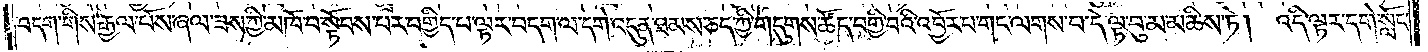བདག་གིས་རྒྱལ་པོས་ཞལ་ཟས་ཀྱི་མཁོ་བ་སྟོབས་པར་བགྱིད་པ་ལྟར་བདག་ལ་དགེ་འདུན་ཐམས་ཅད་ཀྱི་གདུགས་ཚོད་བགྱི་བའི་འབྱོར་པ་གང་ལགས་པ་དེ་ལྟ་བུ་མ་མཆིས་ཏེ། འདི་ལྟར་དགེ་སློང་
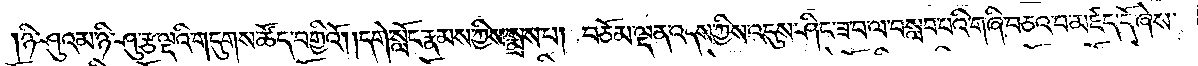ཉི་ཤུའམ་ཉི་ཤུ་རྩ་ལྔའི་གདུགས་ཚོད་བགྱིའོ། །དགེ་སློང་རྣམས་ཀྱིས་སྨྲས་པ། བཅོམ་ལྡན་འདས་ཀྱིས་འདུས་ཤིང་ཟ་བ་ལ་བསླབ་པའི་གཞི་བཅའ་བ་མཛད་དོ་ཞེས་
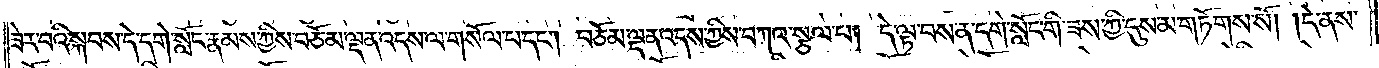ཟེར་བའི་སྐབས་དེ་དགེ་སློང་རྣམས་ཀྱིས་བཅོམ་ལྡན་འདས་ལ་གསོལ་པ་དང༌། བཅོམ་ལྡན་འདས་ཀྱིས་བཀའ་སྩལ་པ། དེ་ལྟ་བས་ན་དགེ་སློང་གི་ཟས་ཀྱི་དུས་མ་གཏོགས་སོ། །དེ་ནས་
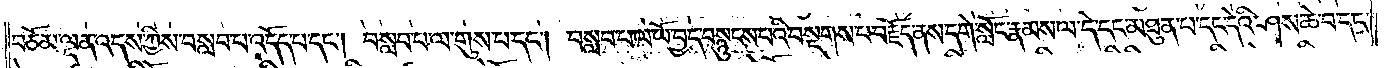བཅོམ་ལྡན་འདས་ཀྱིས་བསླབ་པ་འདོད་པ་དང༌། བསླབ་པ་ལ་གུས་པ་དང༌། བསླབ་པ་ལ་ཡོ་བྱད་བསྙུངས་པའི་བསྔགས་པ་བརྗོད་ནས་དགེ་སློང་རྣམས་ལ་དེ་དང་མཐུན་པ་དང་དེའི་ཤས་ཆེ་བ་དང་
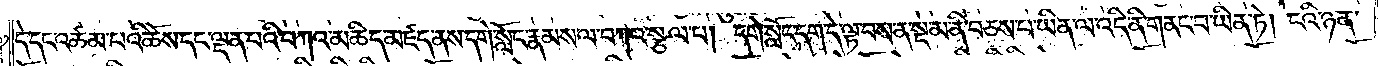དེ་དང་འཚམ་པའི་ཆོས་དང་ལྡན་པའི་བཀའ་མཆིད་མཛད་ནས་དགེ་སློང་རྣམས་ལ་བཀའ་སྩལ་པ། དགེ་སློང་དག་དེ་ལྟ་བས་ན་སྔ་མ་ནི་བཅས་པ་ཡིན་ལ་འདི་ནི་གནང་བ་ཡིན་ཏེ། ངའི་ཉན་
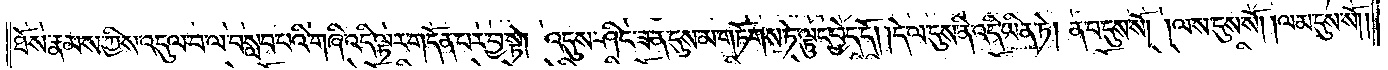ཐོས་རྣམས་ཀྱིས་འདུལ་བ་ལ་བསླབ་པའི་གཞི་འདི་ལྟར་གདོན་པར་བྱ་སྟེ། འདུས་ཤིང་ཟ་ན་དུས་མ་གཏོགས་ཏེ་ལྟུང་བྱེད་དོ། །དེ་ལ་དུས་ནི་འདི་ཡིན་ཏེ། ན་བ་དུས་སོ། །ལས་དུས་སོ། །ལམ་དུས་སོ། །
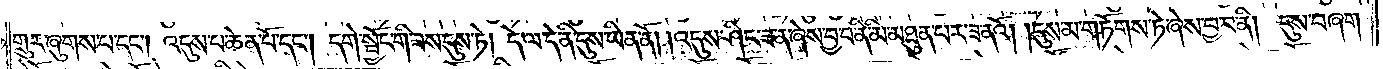གྲུར་ཞུགས་པ་དང༌། འདུས་པ་ཆེན་པོ་དང༌། དགེ་སྦྱོང་གི་ཟས་དུས་ཏེ། དེ་ལ་དེ་ནི་དུས་ཡིན་ནོ། །འདུས་ཤིང་ཟ་ན་ཞེས་བྱ་བ་ནི་མི་མཐུན་པར་ཟ་ནའོ། །དུས་མ་གཏོགས་ཏེ་ཞེས་བྱ་བ་ནི། དུས་བཞག་
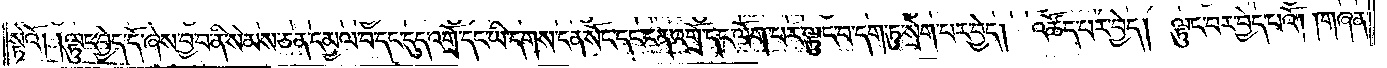སྟེའོ། །ལྟུང་བྱེད་དོ་ཞེས་བྱ་བ་ནི་སེམས་ཅན་དམྱལ་བ་དང་དུད་འགྲོ་དང་ཡི་དགས་ངན་སོང་དང་ངན་འགྲོ་དང་ལོག་པར་ལྟུང་བ་དག་ཏུ་སྲེག་པར་བྱེད། འཚོད་པར་བྱེད། ལྟུང་བར་བྱེད་པའོ། །གཞན་
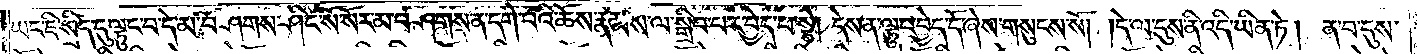ཡང་ཇི་སྲིད་དུ་ལྟུང་བ་དེ་མ་བཤགས་ཤིང་སོ་སོར་མ་བཤགས་ན་དགེ་བའི་ཆོས་རྣམས་ལ་སྒྲིབ་པར་བྱེད་པ་སྟེ། དེས་ན་ལྟུང་བྱེད་དོ་ཞེས་གསུངས་སོ། །དེ་ལ་དུས་ནི་འདི་ཡིན་ཏེ། ན་བ་དུས་
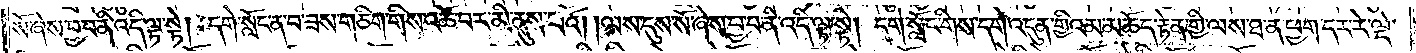སོ་ཞེས་བྱ་བ་ནི་འདི་ལྟ་སྟེ། དགེ་སློང་ན་བ་ཟས་གཅིག་གིས་འཚོ་བར་མི་ནུས་པའོ། །ལས་དུས་སོ་ཞེས་བྱ་བ་ནི་འདི་ལྟ་སྟེ། དགེ་སློང་གིས་དགེ་འདུན་གྱིའམ་མཆོད་རྟེན་གྱི་ལས་ཐ་ན་ཕྱག་དར་རེ་ལྡེ་
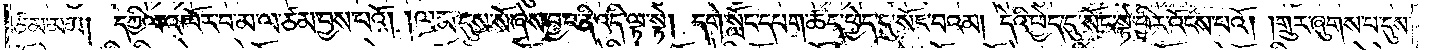ཙམ་མམ། དཀྱིལ་འཁོར་བ་མ་ལ་ཙམ་བྱས་པའོ། །ལམ་དུས་སོ་ཞེས་བྱ་བ་ནི་འདི་ལྟ་སྟེ། དགེ་སློང་དཔག་ཚད་ཕྱེད་དུ་སོང་བའམ། དེའི་ཕྱེད་དུ་སོང་སྟེ་ཕྱིར་འོངས་པའོ། །གྲུར་ཞུགས་པ་དུས་
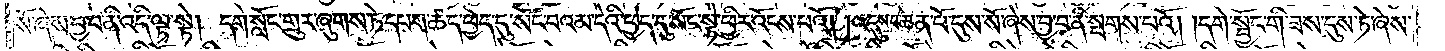སོ་ཞེས་བྱ་བ་ནི་འདི་ལྟ་སྟེ། དགེ་སློང་གྲུར་ཞུགས་ཏེ་དཔག་ཚད་ཕྱེད་དུ་སོང་བའམ་དེའི་ཕྱེད་དུ་སོང་སྟེ་ཕྱིར་འོངས་པའོ། །འདུས་པ་ཆེན་པོ་དུས་སོ་ཞེས་བྱ་བ་ནི་སྤགས་པའོ། །དགེ་སྦྱོང་གི་ཟས་དུས་ཏེ་ཞེས་
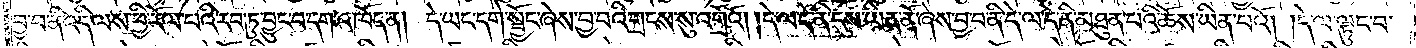བྱ་བ་ནི་འདི་ལས་ཕྱི་རོལ་པའི་རབ་ཏུ་བྱུང་བ་དག་འཁོད་ན། དེ་ཡང་དགེ་སྦྱོང་ཞེས་བྱ་བའི་གྲངས་སུ་འགྲོའོ། །དེ་ལ་དེ་ནི་དུས་ཡིན་ནོ་ཞེས་བྱ་བ་ནི་དེ་ལ་དེ་ནི་མཐུན་པའི་ཆོས་ཡིན་པའོ། །དེ་ལ་ལྟུང་བ་
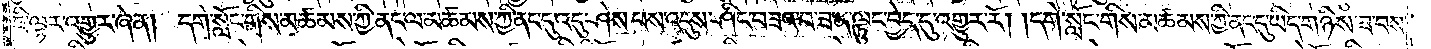ཇི་ལྟར་འགྱུར་ཞེ་ན། དགེ་སློང་གིས་མཚམས་ཀྱི་ནང་ལ་མཚམས་ཀྱི་ནང་དུ་འདུ་ཤེས་པས་འདུས་ཤིང་བཟའ་བ་ཟ་ན་ལྟུང་བྱེད་དུ་འགྱུར་རོ། །དགེ་སློང་གིས་མཚམས་ཀྱི་ནང་དུ་ཡིད་གཉིས་ཟ་བས་
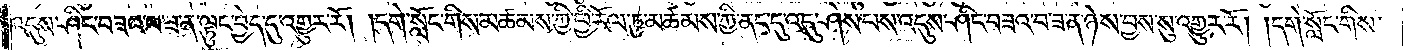འདུས་ཤིང་བཟའ་བ་ཟ་ན་ལྟུང་བྱེད་དུ་འགྱུར་རོ། །དགེ་སློང་གིས་མཚམས་ཀྱི་ཕྱི་རོལ་ཏུ་མཚམས་ཀྱི་ནང་དུ་འདུ་ཤེས་པས་འདུས་ཤིང་བཟའ་བ་ཟ་ན་ཉེས་བྱས་སུ་འགྱུར་རོ། །དགེ་སློང་གིས་
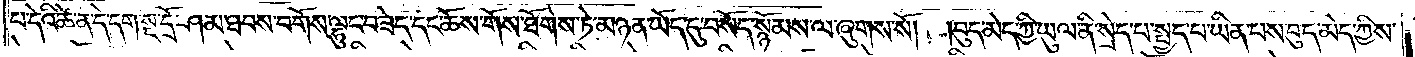པ་དེའི་ཚེ་ན་དེ་དག་སྔ་དྲོ་ཤམ་ཐབས་བགོས་ལྷུང་བཟེད་དང་ཆོས་གོས་ཐོགས་ཏེ་མཉན་ཡོད་དུ་བསོད་སྙོམས་ལ་ཞུགས་སོ། །བུད་མེད་ཀྱི་ཡུལ་ནི་སྲེད་པ་སྤྱད་པ་ཡིན་པས་བུད་མེད་ཀྱིས་
